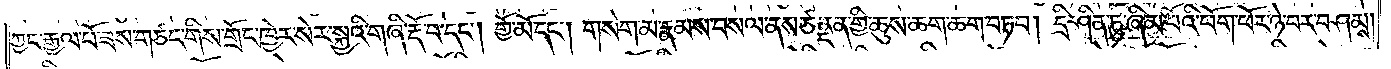ཀྱང་རྒྱལ་པོ་ཟས་གཙང་གིས་གྲོང་ཁྱེར་སེར་སྐྱའི་གཞི་རྡོ་བ་དང༌། གྱོ་མོ་དང༌། གསེག་མ་རྣམས་བསལ་ནས་ཙནྡན་གྱི་ཆུས་ཆག་ཆག་བཏབ། དྲི་ཤིན་ཏུ་ཞིམ་པོའི་པོག་ཕོར་ཉེ་བར་བཤམས།
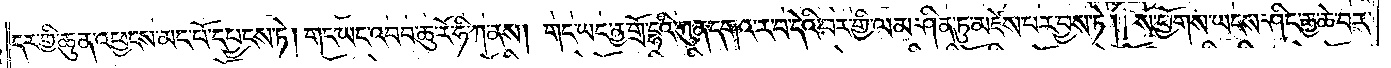དར་གྱི་ཆུན་འཕྱངས་མང་པོ་དཔྱངས་ཏེ། གང་ཡང་འབབ་ཆུ་རོ་ཧི་ཀ་ནས། གང་ཡང་ནྱ་གྲོ་དྷའི་ཀུན་དགའ་ར་བ་དེའི་བར་གྱི་ལམ་ཤིན་ཏུ་མཛེས་པར་བྱས་ཏེ། ས་ཕྱོགས་ཡངས་ཤིང་རྒྱ་ཆེ་བར་
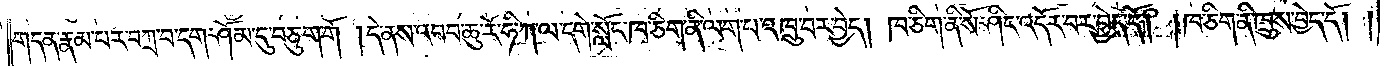གདན་རྣམ་པར་བཀྲ་བ་དག་ཤོམ་དུ་བཅུག་གོ །དེ་ནས་འབབ་ཆུ་རོ་ཧི་ཀ་ལ་དགེ་སློང་ཁ་ཅིག་ནི་ལག་པ་འཁྲུ་བར་བྱེད། ཁ་ཅིག་ནི་སོ་ཤིང་འདོར་བར་བྱེད་དོ། །ཁ་ཅིག་ནི་ཁྲུས་བྱེད་དོ། །
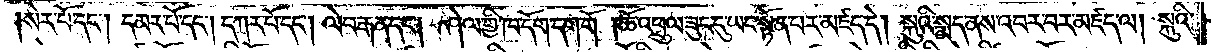།སེར་པོ་དང༌། དམར་པོ་དང༌། དཀར་པོ་དང༌། ལེབ་རྒན་དང༌། ཤེལ་གྱི་ཁ་དོག་དག་གོ །ཆོ་འཕྲུལ་ཟུང་དུ་ཡང་སྟོན་པར་མཛད་དེ། སྐུའི་སྨད་ནས་འབར་བར་མཛད་ལ། སྐུའི་
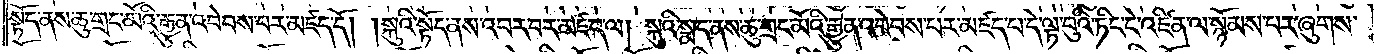སྟོད་ནས་ཆུ་གྲང་མོའི་རྒྱུན་འབེབས་པར་མཛད་དོ། །སྐུའི་སྟོད་ནས་འབར་བར་མཛད་ལ། སྐུའི་སྨད་ནས་ཆུ་གྲང་མོའི་རྒྱུན་འབེབས་པར་མཛད་པ་དེ་ལྟ་བུའི་ཏིང་ངེ་འཛིན་ལ་སྙོམས་པར་ཞུགས་
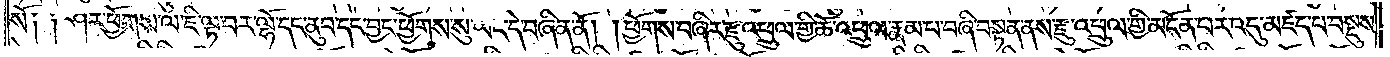སོ༑ ༑ཤར་ཕྱོགས་ལ་ཇི་ལྟ་བར་ལྷོ་དང་ནུབ་དང་བྱང་ཕྱོགས་སུ་ཡང་དེ་བཞིན་ནོ། །ཕྱོགས་བཞིར་རྫུ་འཕྲུལ་གྱི་ཆོ་འཕྲུལ་རྣམ་པ་བཞི་བསྟན་ནས་རྫུ་འཕྲུལ་གྱི་མངོན་པར་འདུ་མཛད་པ་བསྡུས་
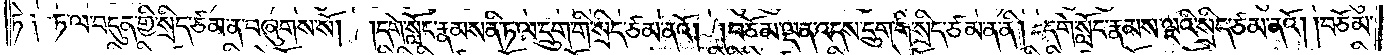ཏེ༑ ཏ་ལ་བདུན་གྱི་སྲིད་ཙམ་ན་བཞུགས་སོ། །དགེ་སློང་རྣམས་ནི་ཏ་ལ་དྲུག་གི་སྲིད་ཙམ་ནའོ། །བཅོམ་ལྡན་འདས་དྲུག་གི་སྲིད་ཙམ་ན་ནི། དགེ་སློང་རྣམས་ལྔའི་སྲིད་ཙམ་ནའོ། །བཅོམ་
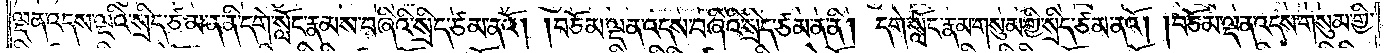ལྡན་འདས་ལྔའི་སྲིད་ཙམ་ན་ནི་དགེ་སློང་རྣམས་བཞིའི་སྲིད་ཙམ་ནའོ། །བཅོམ་ལྡན་འདས་བཞིའི་སྲིད་ཙམ་ན་ནི། དགེ་སློང་རྣམས་གསུམ་གྱི་སྲིད་ཙམ་ནའོ། །བཅོམ་ལྡན་འདས་གསུམ་གྱི་
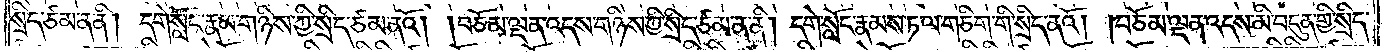སྲིད་ཙམ་ན་ནི། དགེ་སློང་རྣམས་གཉིས་ཀྱིས་སྲིད་ཙམ་ནའོ། །བཅོམ་ལྡན་འདས་གཉིས་ཀྱི་སྲིད་ཙམ་ན་ནི། དགེ་སློང་རྣམས་ཏ་ལ་གཅིག་གི་སྲིད་ནའོ། །བཅོམ་ལྡན་འདས་མི་བདུན་གྱི་སྲིད་
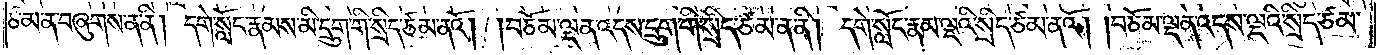ཙམ་ན་བཞུགས་ན་ནི། དགེ་སློང་རྣམས་མི་དྲུག་གི་སྲིད་ཙམ་ཙམ་ནའོ། །བཅོམ་ལྡན་འདས་དྲུག་གི་སྲིད་ཙམ་ན་ནི། དགེ་སློང་རྣམ་ལྔའི་སྲིད་ཙམ་ནའོ། །བཅོམ་ལྡན་འདས་ལྔའི་སྲིད་ཙམ་
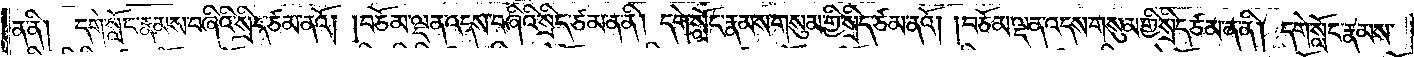ན་ནི། དགེ་སློང་རྣམས་བཞིའི་སྲིད་ཙམ་ནའོ། །བཅོམ་ལྡན་འདས་བཞིའི་སྲིད་ཙམ་ན་ནི། དགེ་སློང་རྣམས་གསུམ་གྱི་སྲིད་ཙམ་ནའོ། །བཅོམ་ལྡན་འདས་གསུམ་གྱི་སྲིད་ཙམ་ན་ནི། དགེ་སློང་རྣམས་
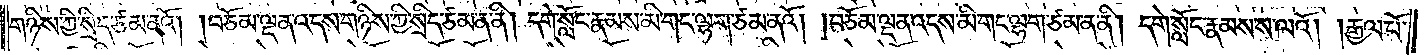གཉིས་ཀྱི་སྲིད་ཙམ་ནའོ། །བཅོམ་ལྡན་འདས་གཉིས་ཀྱི་སྲིད་ཙམ་ན་ནི། དགེ་སློང་རྣམས་མི་གང་ལྷག་ཙམ་ནའོ། །བཅོམ་ལྡན་འདས་མི་གང་ལྷག་ཙམ་ན་ནི། དགེ་སློང་རྣམས་ས་ལའོ། །རྒྱལ་པོ་
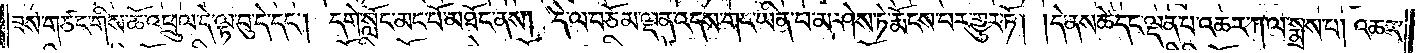ཟས་གཙང་གིས་ཆོ་འཕྲུལ་དེ་ལྟ་བུ་དེ་དང༌། དགེ་སློང་མང་པོ་མཐོང་ནས། དེ་ལ་བཅོམ་ལྡན་འདས་གང་ཡིན་པ་མ་ཤེས་ཏེ་རྨོངས་པར་གྱུར་ཏོ། །དེ་ནས་ཚེ་དང་ལྡན་པ་འཆར་ཀ་ལ་སྨྲས་པ། འཆར་
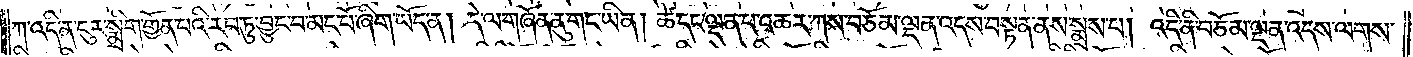ཀ་འདི་ན་ངུར་སྨྲིག་གྱོན་པའི་རབ་ཏུ་བྱུང་བ་མང་པོ་ཞིག་ཡོད་ན། དེ་ལ་གཞོན་ནུ་གང་ཡིན། ཚེ་དང་ལྡན་པ་འཆར་ཀས་བཅོམ་ལྡན་འདས་བསྟན་ནས་སྨྲས་པ། འདི་ནི་བཅོམ་ལྡན་འདས་ལགས་
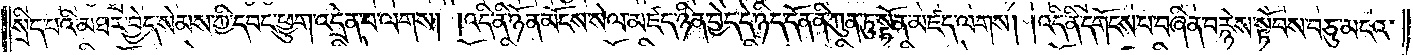སྲིད་པའི་མཐར་བྱེད་སེམས་ཀྱི་དབང་ཕྱུག་འདྲེན་པ་ལགས། །འདི་ནི་ཉོན་མོངས་སེལ་མཛད་ཉིན་བྱེད་དེ་ཉིད་དོན་ནི་ཀུན་ཏུ་སྟོན་མཛད་ལགས། །འདི་ནི་དགོངས་པ་བཞིན་བརྙེས་སྟོབས་བཅུ་མངའ་
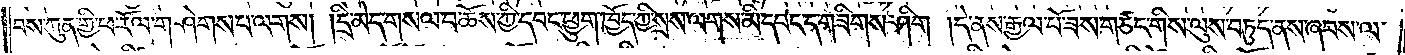བས་ཀུན་གྱི་ཕ་རོལ་གཤེགས་པ་ལགས། །དྲི་མེད་གསལ་བ་ཆོས་ཀྱི་དབང་ཕྱུག་ཁྱོད་ཀྱི་སྲས་ལགས་མི་དབང་དག་གཟིགས་ཤིག །དེ་ནས་རྒྱལ་པོ་ཟས་གཙང་གིས་ལུས་བཏུད་ནས་ཞབས་ལ་
